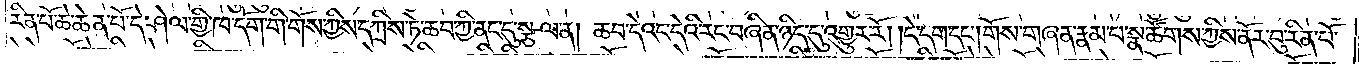རིན་པོ་ཆེ་ཆེན་པོ་དེ་ཤེལ་གྱི་ཁ་དོག་གི་གོས་ཀྱིས་དཀྲིས་ཏེ་ཆབ་ཀྱི་ནང་དུ་སྩལ་ན། ཆབ་དེའང་དེའི་རང་བཞིན་ཉིད་དུ་འགྱུར་རོ། །དེ་དག་དང༌། གོས་གཞན་རྣམ་པ་སྣ་ཚོགས་ཀྱིས་ནོར་བུ་རིན་པོ་
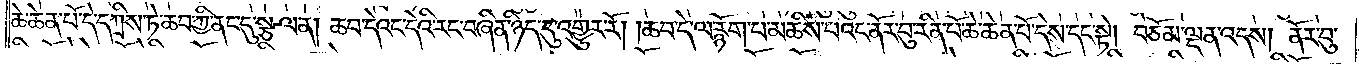ཆེ་ཆེན་པོ་དེ་དཀྲིས་ཏེ་ཆབ་ཀྱི་ནང་དུ་སྩལ་ན། ཆབ་དེའང་དེའི་རང་བཞིན་ཉིད་དུ་འགྱུར་རོ། །ཆབ་དེ་ལ་རྙོག་པ་མཆིས་པའང་ནོར་བུ་རིན་པོ་ཆེ་ཆེན་པོ་དེས་དང་སྟེ། བཅོམ་ལྡན་འདས། ནོར་བུ་
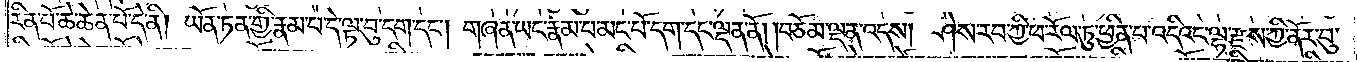རིན་པོ་ཆེ་ཆེན་པོ་དེ་ནི། ཡོན་ཏན་གྱི་རྣམ་པ་དེ་ལྟ་བུ་དག་དང༌། གཞན་ཡང་རྣམ་པ་མང་པོ་དག་དང་ལྡན་ནོ། །བཅོམ་ལྡན་འདས། ཤེས་རབ་ཀྱི་ཕ་རོལ་ཏུ་ཕྱིན་པ་འདིའང་ལྷ་རྫས་ཀྱི་ནོར་བུ་
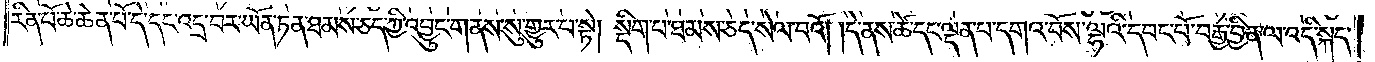རིན་པོ་ཆེ་ཆེན་པོ་དེ་དང་འདྲ་བར་ཡོན་ཏན་ཐམས་ཅད་ཀྱི་འབྱུང་གནས་སུ་གྱུར་པ་སྟེ། སྡིག་པ་ཐམས་ཅད་སེལ་བའོ། །དེ་ནས་ཚེ་དང་ལྡན་པ་དགའ་བོས་ལྷའི་དབང་པོ་བརྒྱ་བྱིན་ལ་འདི་སྐད་
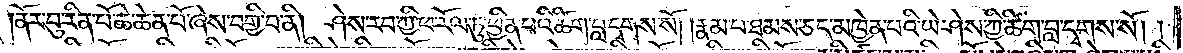ནོར་བུ་རིན་པོ་ཆེ་ཆེན་པོ་ཞེས་བགྱི་བ་ནི། ཤེས་རབ་ཀྱི་ཕ་རོལ་ཏུ་ཕྱིན་པའི་ཚིག་བླ་དྭགས་སོ། །རྣམ་པ་ཐམས་ཅད་མཁྱེན་པའི་ཡེ་ཤེས་ཀྱི་ཚིག་བླ་དྭགས་སོ། །
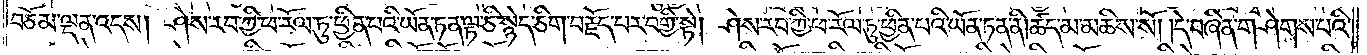བཅོམ་ལྡན་འདས། ཤེས་རབ་ཀྱི་ཕ་རོལ་ཏུ་ཕྱིན་པའི་ཡོན་ཏན་ལྟ་ཅི་སྙེད་ཅིག་བརྗོད་པར་བགྱི་སྟེ། ཤེས་རབ་ཀྱི་ཕ་རོལ་ཏུ་ཕྱིན་པའི་ཡོན་ཏན་ནི། ཚད་མ་མཆིས་སོ། །དེ་བཞིན་གཤེགས་པའི་
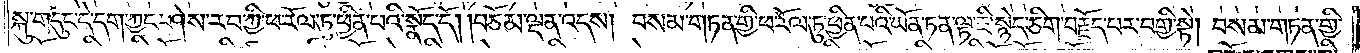སྐུ་གདུང་དེ་དག་ཀྱང་ཤེས་རབ་ཀྱི་ཕ་རོལ་ཏུ་ཕྱིན་པའི་སྣོད་དོ། བཅོམ་ལྡན་འདས། བསམ་གཏན་གྱི་ཕ་རོལ་ཏུ་ཕྱིན་པའི་ཡོན་ཏན་ལྟ་ཇི་སྙེད་ཅིག་བརྗོད་པར་བགྱི་སྟེ། བསམ་གཏན་གྱི་
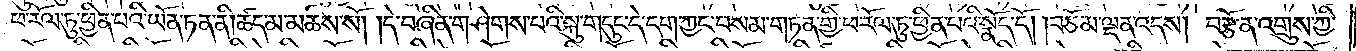ཕ་རོལ་ཏུ་ཕྱིན་པའི་ཡོན་ཏན་ནི། ཚད་མ་མཆིས་སོ། །དེ་བཞིན་གཤེགས་པའི་སྐུ་གདུང་དེ་དག་ཀྱང་བསམ་གཏན་གྱི་ཕ་རོལ་ཏུ་ཕྱིན་པའི་སྣོད་དོ། །བཅོམ་ལྡན་འདས། བརྩོན་འགྲུས་ཀྱི་
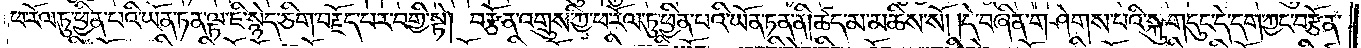ཕ་རོལ་ཏུ་ཕྱིན་པའི་ཡོན་ཏན་ལྟ་ཇི་སྙེད་ཅིག་བརྗོད་པར་བགྱི་སྟེ། བརྩོན་འགྲུས་ཀྱི་ཕ་རོལ་ཏུ་ཕྱིན་པའི་ཡོན་ཏན་ནི། ཚད་མ་མཆིས་སོ། །དེ་བཞིན་གཤེགས་པའི་སྐུ་གདུང་དེ་དག་ཀྱང་བརྩོན་
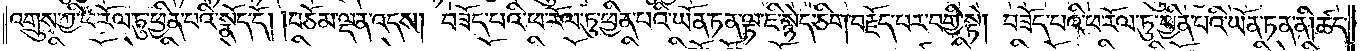འགྲུས་ཀྱི་ཕ་རོལ་ཏུ་ཕྱིན་པའི་སྣོད་དོ། །བཅོམ་ལྡན་འདས། བཟོད་པའི་ཕ་རོལ་ཏུ་ཕྱིན་པའི་ཡོན་ཏན་ལྟ་ཇི་སྙེད་ཅིག་བརྗོད་པར་བགྱི་སྟེ། བཟོད་པའི་ཕ་རོལ་ཏུ་ཕྱིན་པའི་ཡོན་ཏན་ནི། ཚད་
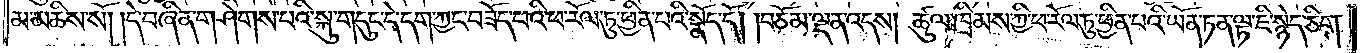མ་མཆིས་སོ། །དེ་བཞིན་གཤེགས་པའི་སྐུ་གདུང་དེ་དག་ཀྱང་བཟོད་པའི་ཕ་རོལ་ཏུ་ཕྱིན་པའི་སྣོད་དོ། །བཅོམ་ལྡན་འདས། ཚུལ་ཁྲིམས་ཀྱི་ཕ་རོལ་ཏུ་ཕྱིན་པའི་ཡོན་ཏན་ལྟ་ཇི་སྙེད་ཅིག་
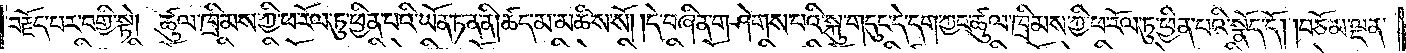བརྗོད་པར་བགྱི་སྟེ། ཚུལ་ཁྲིམས་ཀྱི་ཕ་རོལ་ཏུ་ཕྱིན་པའི་ཡོན་ཏན་ནི། ཚད་མ་མཆིས་སོ། །དེ་བཞིན་གཤེགས་པའི་སྐུ་གདུང་དེ་དག་ཀྱང་ཚུལ་ཁྲིམས་ཀྱི་ཕ་རོལ་ཏུ་ཕྱིན་པའི་སྣོད་དོ། །བཅོམ་ལྡན་
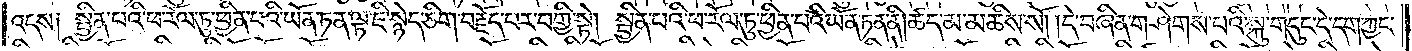འདས། སྦྱིན་པའི་ཕ་རོལ་ཏུ་ཕྱིན་པའི་ཡོན་ཏན་ལྟ་ཇི་སྙེད་ཅིག་བརྗོད་པར་བགྱི་སྟེ། སྦྱིན་པའི་ཕ་རོལ་ཏུ་ཕྱིན་པའི་ཡོན་ཏན་ནི། ཚད་མ་མཆིས་སོ། །དེ་བཞིན་གཤེགས་པའི་སྐུ་གདུང་དེ་དག་ཀྱང་
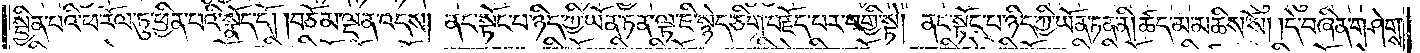སྦྱིན་པའི་ཕ་རོལ་ཏུ་ཕྱིན་པའི་སྣོད་དོ། །བཅོམ་ལྡན་འདས། ནང་སྟོང་པ་ཉིད་ཀྱི་ཡོན་ཏན་ལྟ་ཇི་སྙེད་ཅིག་བརྗོད་པར་བགྱི་སྟེ། ནང་སྟོང་པ་ཉིད་ཀྱི་ཡོན་ཏན་ནི་ཚད་མ་མཆིས་སོ། །དེ་བཞིན་གཤེགས་
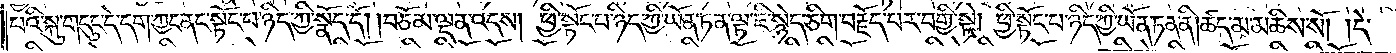པའི་སྐུ་གདུང་དེ་དག་ཀྱང་ནང་སྟོང་པ་ཉིད་ཀྱི་སྣོད་དོ། །བཅོམ་ལྡན་འདས། ཕྱི་སྟོང་པ་ཉིད་ཀྱི་ཡོན་ཏན་ལྟ་ཇི་སྙེད་ཅིག་བརྗོད་པར་བགྱི་སྟེ། ཕྱི་སྟོང་པ་ཉིད་ཀྱི་ཡོན་ཏན་ནི་ཚད་མ་མཆིས་སོ། །དེ་
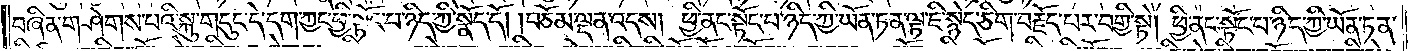བཞིན་གཤེགས་པའི་སྐུ་གདུང་དེ་དག་ཀྱང་ཕྱི་སྟོང་པ་ཉིད་ཀྱི་སྣོད་དོ། །བཅོམ་ལྡན་འདས། ཕྱི་ནང་སྟོང་པ་ཉིད་ཀྱི་ཡོན་ཏན་ལྟ་ཇི་སྙེད་ཅིག་བརྗོད་པར་བགྱི་སྟེ། ཕྱི་ནང་སྟོང་པ་ཉིད་ཀྱི་ཡོན་ཏན་
